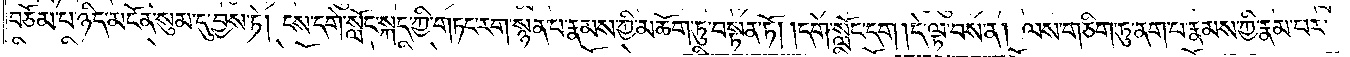བཅོམ་པ་ཉིད་མངོན་སུམ་དུ་བྱས་ཏེ། ངས་དགེ་སློང་སྐད་ཀྱི་གཏང་རག་སྙན་པ་རྣམས་ཀྱི་མཆོག་ཏུ་བསྟན་ཏེ། །དགེ་སློང་དག །དེ་ལྟ་བས་ན། ལས་གཅིག་ཏུ་ནག་པ་རྣམས་ཀྱི་རྣམ་པར་
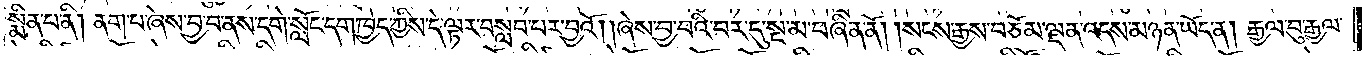སྨིན་པ་ནི། ནག་པ་ཞེས་བྱ་བ་ནས་དགེ་སློང་དག་ཁྱེད་ཀྱིས་ད་ལྟར་བསླབ་པར་བྱའོ། །ཞེས་བྱ་བའི་བར་དུ་སྔ་མ་བཞིན་ནོ། །སངས་རྒྱས་བཅོམ་ལྡན་འདས་མཉན་ཡོད་ན། རྒྱལ་བུ་རྒྱལ་
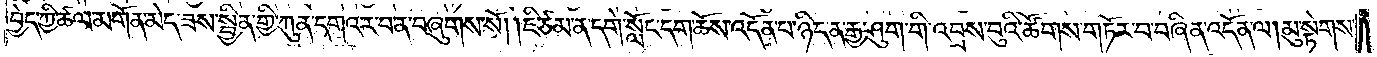བྱེད་ཀྱི་ཚལ་མགོན་མེད་ཟས་སྦྱིན་གྱི་ཀུན་དགའ་ར་བ་ན་བཞུགས་སོ། །ཇི་ཙམ་ན་དགེ་སློང་དག་ཆོས་འདོན་པ་ཉིད་ན་རྒྱ་ཤུག་གི་འབྲས་བུའི་ཚོགས་གཏོར་བ་བཞིན་འདོན་ལ། མུ་སྟེགས་
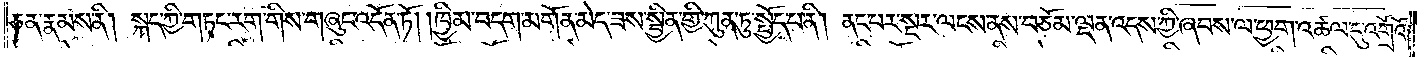ཅན་རྣམས་ནི། སྐད་ཀྱི་གཏང་རག་གིས་གཞུང་འདོན་ཏོ། །ཁྱིམ་བདག་མགོན་མེད་ཟས་སྦྱིན་གྱི་ཀུན་ཏུ་སྤྱོད་པ་ནི། ནང་པར་སྔར་ལངས་ནས་བཅོམ་ལྡན་འདས་ཀྱི་ཞབས་ལ་ཕྱག་འཚལ་དུ་འགྲོའོ་
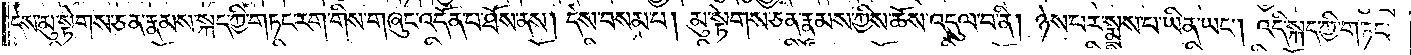དེས་མུ་སྟེགས་ཅན་རྣམས་སྐད་ཀྱི་གཏང་རག་གིས་གཞུང་འདོན་པ་ཐོས་ནས། དེས་བསམ་པ། མུ་སྟེགས་ཅན་རྣམས་ཀྱིས་ཆོས་འདུལ་བ་ནི། ཉེས་པར་སྨྲས་པ་ཡིན་ཡང༌། འདི་སྐད་ཀྱི་གཏང་
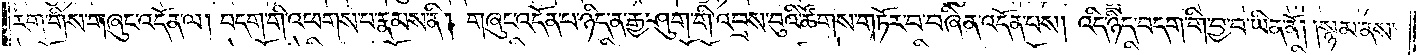རག་གིས་གཞུང་འདོན་ལ། བདག་གི་འཕགས་པ་རྣམས་ནི། གཞུང་འདོན་པ་ཉིད་ན་རྒྱ་ཤུག་གི་འབྲས་བུའི་ཚོགས་གཏོར་བ་བཞིན་འདོན་པས། འདི་ཉིད་བདག་གི་བྱ་བ་ཡིན་ནོ། །སྙམ་ནས་
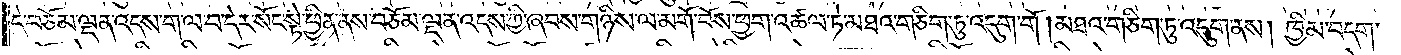དེ་བཅོམ་ལྡན་འདས་ག་ལ་བ་དེར་སོང་སྟེ་ཕྱིན་ནས་བཅོམ་ལྡན་འདས་ཀྱི་ཞབས་གཉིས་ལ་མགོ་བོས་ཕྱག་འཚལ་ཏེ་མཐའ་གཅིག་ཏུ་འདུག་གོ །མཐའ་གཅིག་ཏུ་འདུག་ནས། ཁྱིམ་བདག་
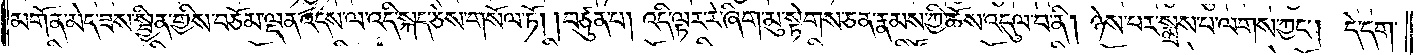མགོན་མེད་ཟས་སྦྱིན་གྱིས་བཅོམ་ལྡན་འདས་ལ་འདི་སྐད་ཅེས་གསོལ་ཏོ། །བཙུན་པ། འདི་ལྟར་རེ་ཞིག་མུ་སྟེགས་ཅན་རྣམས་ཀྱི་ཆོས་འདུལ་བ་ནི། ཉེས་པར་སྨྲས་པ་ལགས་ཀྱང༌། དེ་དག་
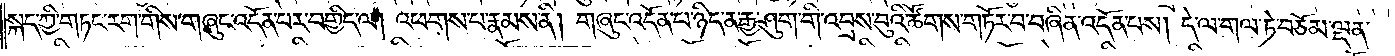སྐད་ཀྱི་གཏང་རག་གིས་གཞུང་འདོན་པར་བགྱིད་ལ། འཕགས་པ་རྣམས་ནི། གཞུང་འདོན་པ་ཉིད་ན་རྒྱ་ཤུག་གི་འབྲས་བུའི་ཚོགས་གཏོར་བ་བཞིན་འདོན་པས། དེ་ལ་གལ་ཏེ་བཅོམ་ལྡན་
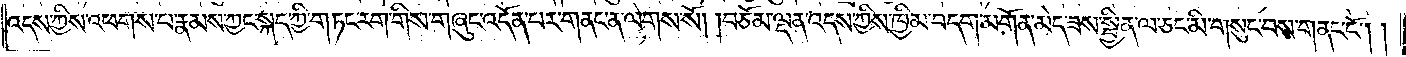འདས་ཀྱིས་འཕགས་པ་རྣམས་ཀྱང་སྐད་ཀྱི་གཏང་རག་གིས་གཞུང་འདོན་པར་གནང་ན་ལེགས་སོ། །བཅོམ་ལྡན་འདས་ཀྱིས་ཁྱིམ་བདག་མགོན་མེད་ཟས་སྦྱིན་ལ་ཅང་མི་གསུང་བས་གནང་ངོ༌། །
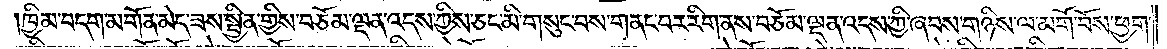ཁྱིམ་བདག་མགོན་མེད་ཟས་སྦྱིན་གྱིས་བཅོམ་ལྡན་འདས་ཀྱིས་ཅང་མི་གསུང་བས་གནང་བར་རིག་ནས་བཅོམ་ལྡན་འདས་ཀྱི་ཞབས་གཉིས་ལ་མགོ་བོས་ཕྱག་
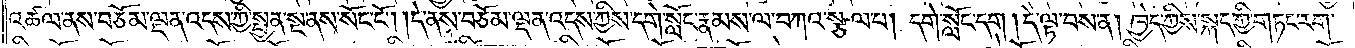འཚལ་ནས་བཅོམ་ལྡན་འདས་ཀྱི་སྤྱན་སྔ་ནས་སོང་ངོ༌། །དེ་ནས་བཅོམ་ལྡན་འདས་ཀྱིས་དགེ་སློང་རྣམས་ལ་བཀའ་སྩལ་པ། དགེ་སློང་དག །དེ་ལྟ་བས་ན། ཁྱེད་ཀྱིས་སྐད་ཀྱི་གཏང་རག་
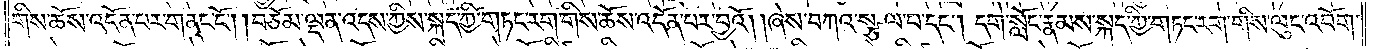གིས་ཆོས་འདོན་པར་གནང་ངོ༌། །བཅོམ་ལྡན་འདས་ཀྱིས་སྐད་ཀྱི་གཏང་རག་གིས་ཆོས་འདོན་པར་བྱའོ། །ཞེས་བཀའ་སྩལ་པ་དང༌། དགེ་སློང་རྣམས་སྐད་ཀྱི་གཏང་རག་གིས་ལུང་འབོག་
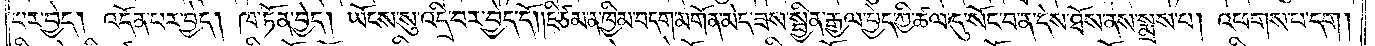པར་བྱེད། འདོན་པར་བྱེད། ཁ་ཏོན་བྱེད། ཡོངས་སུ་འདྲི་བར་བྱེད་དོ། །ཇི་ཙམ་ན་ཁྱིམ་བདག་མགོན་མེད་ཟས་སྦྱིན་རྒྱལ་བྱེད་ཀྱི་ཚལ་དུ་སོང་བ་ན་དས་ཐོས་ནས་སྨྲས་པ། འཕགས་པ་དག།
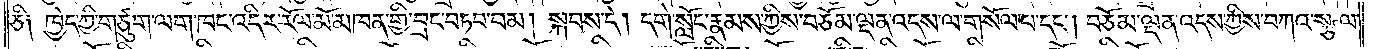ཅི༑ ཁྱེད་ཀྱི་གཙུག་ལག་ཁང་འདིར་རོལ་མོ་མཁན་གྱི་བྲང་བཏབ་བམ། སྐབས་དེ། དགེ་སློང་རྣམས་ཀྱིས་བཅོམ་ལྡན་འདས་ལ་གསོལ་པ་དང༌། བཅོམ་ལྡན་འདས་ཀྱིས་བཀའ་སྩལ་
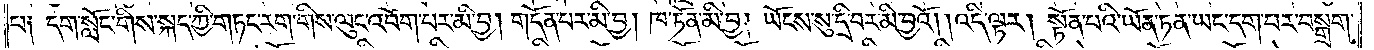པ༑ དགེ་སློང་གིས་སྐད་ཀྱི་གཏང་རག་གིས་ལུང་འབོག་པར་མི་བྱ། གདོན་པར་མི་བྱ། ཁ་ཏོན་མི་བྱ། ཡོངས་སུ་དྲི་བར་མི་བྱའོ། །འདི་ལྟར། སྟོན་པའི་ཡོན་ཏན་ཡང་དག་པར་བསྒྲག་
